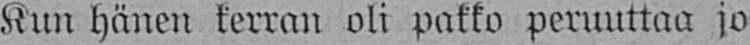Kun hänen kerran oli pakko peruuttaa jo
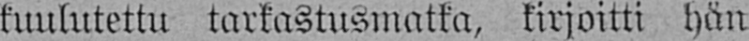kuulutettu tarkastusmatka, kirjoitti hän
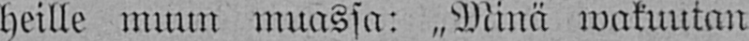heille muun muassa: „Minä wakuutan
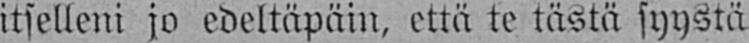itselleni jo edeltäpäin, että te tästä syystä
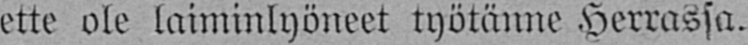ette ole laiminlyöneet työtänne Herrassa.
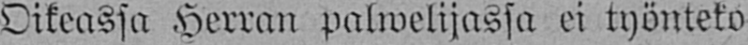Oikeassa Herran palwelijassa ei työnteko
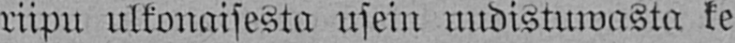riipu ulkonaisesta usein uudistuwasta ke-
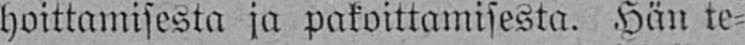hoittamisesta ja pakoittamisesta. Hän te-
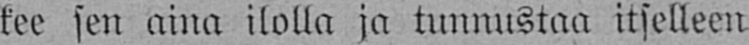kee sen aina ilolla ja tunnustaa itselleen
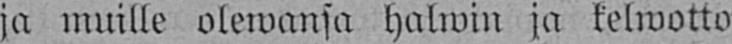ja muille olewansa halwin ja kelwotto-
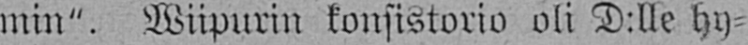min". Wiipurin konsistorio oli D:lle hy-
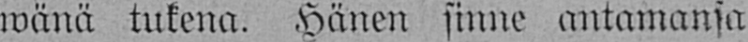wänä tukena. Hänen sinne antamansa
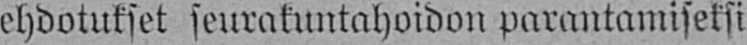ehdotukset seurakuntahoidon parantamiseksi
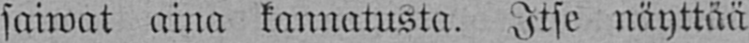saiwat aina kannatusta. Itse näyttää
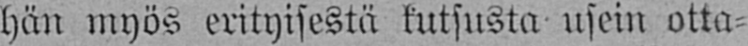hän myös erityisestä kutsusta usein otta-
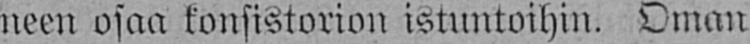neen osaa konsistorion istuntoihin. Oman
